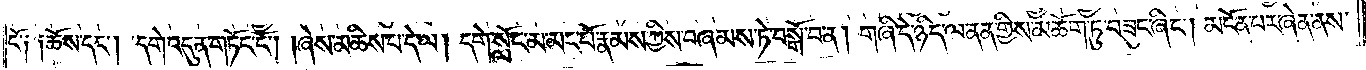ངོ༑ ༑ཆོས་དང༌། དགེ་འདུན་གཏོང་ངོ༌། །ཞེས་མཆིས་པ་དེ་ལ། དགེ་སློང་མ་མང་པོ་རྣམས་ཀྱིས་བཞམས་ཏེ་བསྒོ་བ་ན། གཞི་དེ་ཉིད་ལ་ནན་གྱིས་མཆོག་ཏུ་བཟུང་ཞིང༌། མངོན་པར་ཞེན་ནས་
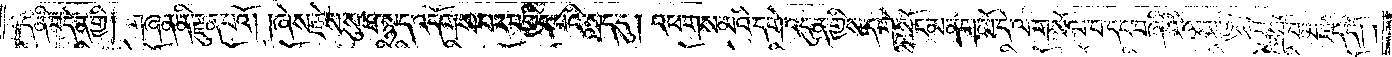འདི་ནི་བདེན་གྱི། གཞན་ནི་རྫུན་པའོ། །ཞེས་རྗེས་སུ་ཐ་སྙད་འདོགས་པར་བགྱིད་པའི་སླད་དུ། འཕགས་མའི་དགེ་འདུན་གྱིས་དགེ་སློང་མ་ནག་མོ་དེ་ལ་གསོལ་བ་དང་བཞིའི་ལས་ཀྱིས་བསྒོ་བ་མཛད་དོ། །
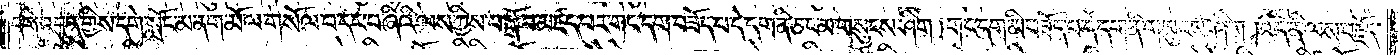དགེ་འདུན་གྱིས་དགེ་སློང་མ་ནག་མོ་ལ་གསོལ་བ་དང་བཞིའི་ལས་ཀྱིས་བསྒོ་བ་མཛད་པར་གང་དག་བཟོད་པ་དེ་དག་ནི་ཅང་མ་གསུངས་ཤིག །གང་དག་མི་བཟོད་པ་དེ་དག་ནི་གསུངས་ཤིག །འདི་ནི་ལས་བརྗོད་
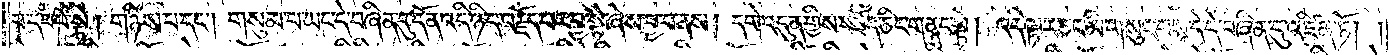པ་དང་པོ་སྟེ། གཉིས་པ་དང༌། གསུམ་པ་ཡང་དེ་བཞིན་དུ་དོན་འདི་ཉིད་བརྗོད་པར་བྱ་སྟེ་ཞེས་བྱ་བ་ནས། དགེ་འདུན་གྱིས་བཟོད་ཅིང་གནང་སྟེ། འདི་ལྟར་ཅང་མི་གསུང་བས་དེ་དེ་བཞིན་དུ་འཛིན་ཏོ། །
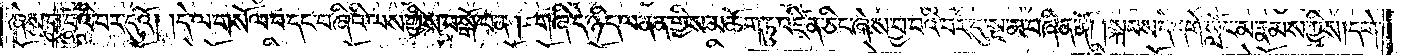ཞེས་བྱ་བའི་བར་དུའོ། །དེ་ལ་གསོལ་བ་དང་བཞིའི་ལས་ཀྱིས་བསྒོ་བ་ན། གཞི་དེ་ཉིད་ལ་ནན་གྱིས་མཆོག་ཏུ་འཛིན་ཅིང་ཞེས་བྱ་བའི་བར་དུ་སྔ་མ་བཞིན་ནོ། །སྐབས་དེ་དགེ་སློང་མ་རྣམས་ཀྱིས། དགེ་
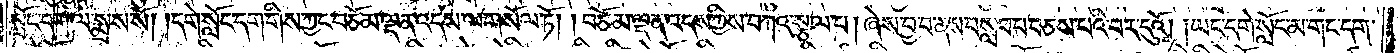སློང་དག་ལ་སྨྲས་སོ། །དགེ་སློང་དག་གིས་ཀྱང་བཅོམ་ལྡན་འདས་ལ་གསོལ་ཏོ། །བཅོམ་ལྡན་འདས་ཀྱིས་བཀའ་སྩལ་པ། ཞེས་བྱ་བ་ནས་བསླབ་པ་བཅས་པའི་བར་དུའོ། །ཡང་དགེ་སློང་མ་གང་དག་
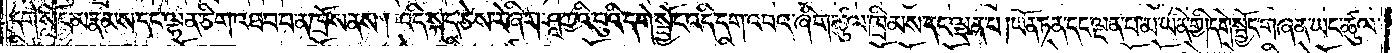དགེ་སློང་མ་རྣམས་དང་ལྷན་ཅིག་འཐབ་པ་ན་ཁྲོས་ནས། འདི་སྐད་ཅེས་རེ་ཞིག་ཤཱཀྱའི་བུའི་དགེ་སྦྱོང་འདི་དག་འབའ་ཞིག་ཚུལ་ཁྲིམས་དང་ལྡན་པ། ཡོན་ཏན་དང་ལྡན་པ་མ་ཡིན་གྱི། དགེ་སྦྱོང་གཞན་ཡང་ཚུལ་
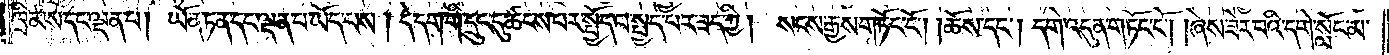ཁྲིམས་དང་ལྡན་པ། ཡོན་ཏན་དང་ལྡན་པ་ཡོད་པས། དེ་དག་གི་དྲུང་དུ་ཚངས་པར་སྤྱོད་པ་སྤྱད་པར་ཟད་ཀྱི། སངས་རྒྱས་གཏོང་ངོ༌། །ཆོས་དང༌། དགེ་འདུན་གཏོང་ངོ༌། །ཞེས་ཟེར་བའི་དགེ་སློང་མ་
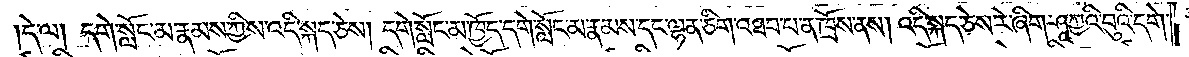དེ་ལ། དགེ་སློང་མ་རྣམས་ཀྱིས་འདི་སྐད་ཅེས། དགེ་སློང་མ་ཁྱོད་དགེ་སློང་མ་རྣམས་དང་ལྷན་ཅིག་འཐབ་པ་ན་ཁྲོས་ནས། འདི་སྐད་ཅེས་རེ་ཞིག་ཤཱཀྱའི་བུའི་དགེ་
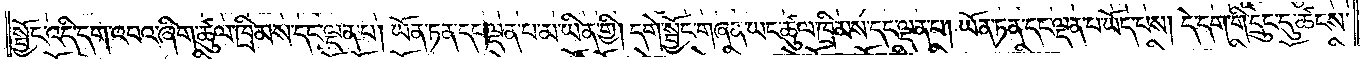སྦྱོང་འདི་དག་འབའ་ཞིག་ཚུལ་ཁྲིམས་དང་ལྡན་པ། ཡོན་ཏན་དང་ལྡན་པ་མ་ཡིན་གྱི། དགེ་སྦྱོང་གཞན་ཡང་ཚུལ་ཁྲིམས་དང་ལྡན་པ། ཡོན་ཏན་དང་ལྡན་པ་ཡོད་པས། དེ་དག་གི་དྲུང་དུ་ཚངས་
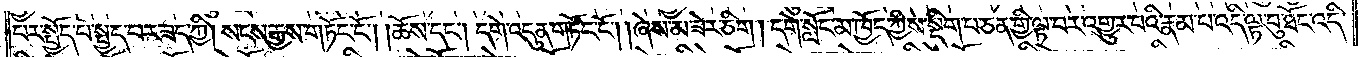པར་སྤྱོད་པ་སྤྱད་པར་ཟད་ཀྱི། སངས་རྒྱས་གཏོང་ངོ༌། །ཆོས་དང༌། དགེ་འདུན་གཏོང་ངོ༌། །ཞེས་མ་ཟེར་ཅིག །དགེ་སློང་མ་ཁྱོད་ཀྱིས་སྡིག་པ་ཅན་གྱི་ལྟ་བར་འགྱུར་བའི་རྣམ་པ་འདི་ལྟ་བུ་ཐོང་འདི་
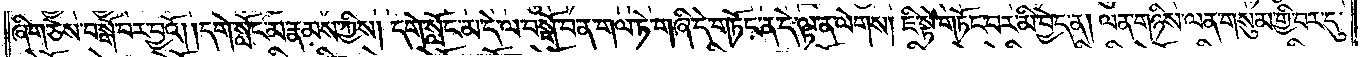ཞིག་ཅེས་བསྒོ་བར་བྱའོ། །དགེ་སློང་མ་རྣམས་ཀྱིས། དགེ་སློང་མ་དེ་ལ་བསྒོ་བ་ན་གལ་ཏེ་གཞི་དེ་གཏོང་ན་དེ་ལྟ་ན་ལེགས། ཇི་སྟེ་གཏོང་བར་མི་བྱེད་ན། ལན་གཉིས་ལན་གསུམ་གྱི་བར་དུ་
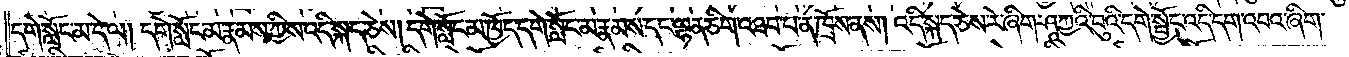དགེ་སློང་མ་དེ་ལ། དགེ་སློང་མ་རྣམས་ཀྱིས་འདི་སྐད་ཅེས། དགེ་སློང་མ་ཁྱོད་དགེ་སློང་མ་རྣམས་དང་ལྷན་ཅིག་འཐབ་པ་ན་ཁྲོས་ནས། འདི་སྐད་ཅེས་རེ་ཞིག་ཤཱཀྱའི་བུའི་དགེ་སྦྱོང་འདི་དག་འབའ་ཞིག་
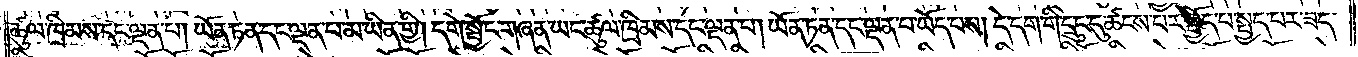ཚུལ་ཁྲིམས་དང་ལྡན་པ། ཡོན་ཏན་དང་ལྡན་པ་མ་ཡིན་གྱི། དགེ་སྦྱོང་གཞན་ཡང་ཚུལ་ཁྲིམས་དང་ལྡན་པ། ཡོན་ཏན་དང་ལྡན་པ་ཡོད་པས། དེ་དག་གི་དྲུང་དུ་ཚངས་པར་སྤྱོད་པ་སྤྱད་པར་ཟད་
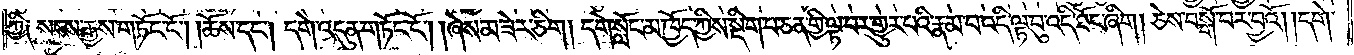ཀྱི༑ སངས་རྒྱས་གཏོང་ངོ༌། །ཆོས་དང༌། དགེ་འདུན་གཏོང་ངོ༌། །ཞེས་མ་ཟེར་ཅིག །དགེ་སློང་མ་ཁྱོད་ཀྱིས་སྡིག་པ་ཅན་གྱི་ལྟ་བར་གྱུར་པའི་རྣམ་པ་འདི་ལྟ་བུ་འདི་ཐོང་ཞིག །ཅེས་བསྒོ་བར་བྱའོ། །དགེ་
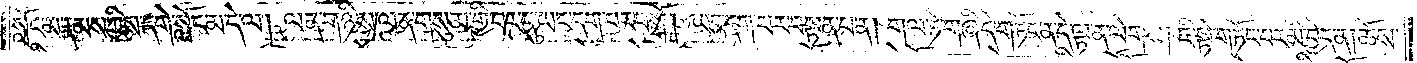སློང་མ་རྣམས་ཀྱིས་དགེ་སློང་མ་དེ་ལ། ལན་གཉིས་ལན་གསུམ་གྱི་བར་དུ་ཡང་དག་པར་བསྒོ། ཡང་དག་པར་བསྟན་པ་ན། གལ་ཏེ་གཞི་དེ་གཏོང་ན་དེ་ལྟ་ན་ལེགས། ཇི་སྟེ་གཏོང་བར་མི་བྱེད་ན། ཆོས་
